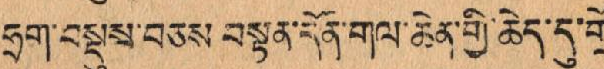ཧྲག་བསྡུས་བཅས་བསྟན་དོན་གལ་ཆེན་གྱི་ཆེད་དུ་གྲོ་
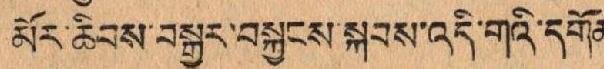མོར་ཆིབས་བསྒྱུར་བསྐྱངས་སྐབས་འདི་གའི་དགོན་
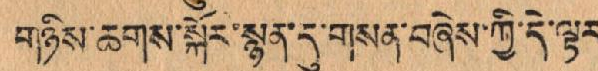གཉིས་ཆགས་སྐོར་སྙན་དུ་གསན་བཞེས་ཀྱི་དེ་ལྟར་
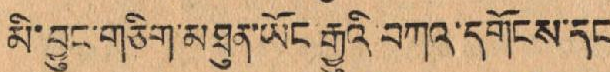མི་བྱུང་གཅིག་མཐུན་ཡོང་རྒྱུའི་བཀའ་དགོངས་དང་
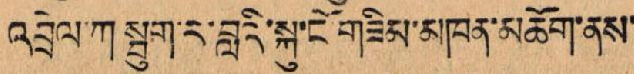འབྲེལ་ཀ་སྦུག་ར་བླའི་སྐུ་ངོ་གཟིམ་མཁན་མཆོག་ནས་
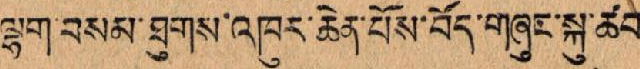ལྷག་བསམ་ཐུགས་འཁུར་ཆེན་པོས་བོད་གཞུང་སྐུ་ཚབ་
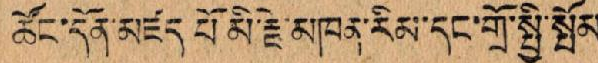ཚོང་དོན་མཛད པོ་མི་རྗེ་མཁན་རིམ་དང་གྲོ་སྤྱི་སྤོམ་
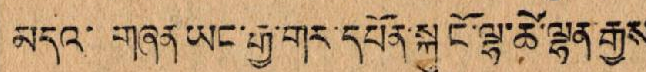མདའ་ གཞན་ཡང་རྒྱ་གར་དཔོན་སྐུ ངོ་ལྷ་ཚེ་ལྷན་རྒྱས་
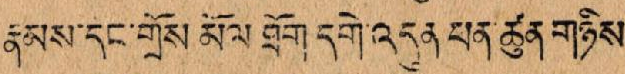རྣམས་དང་གྲོས་མོལ ཐོག དགེ་འདུན ཕན་ཚུལ་གཉིས་
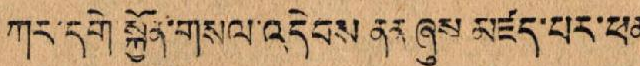ཀར་དགེ་སྐྱོན་གསལ་འདེབས ནན ཞུས མཛད་པར་ཕན་
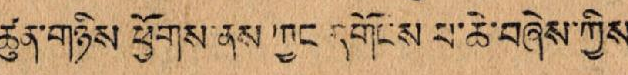ཚུན་གཉིས ཕྱོགས་ནས ཀྱང་དགོངས་པ་ཆེ་བཞེས་ཀྱིས་
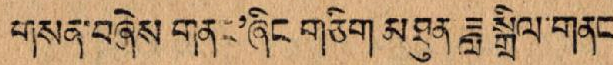གསན་བཞེས་གནང'ཞིང གཅིག མཐུན ཟླ་སྒྲིལ་གནང་
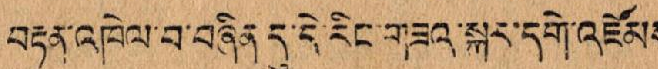བརྟན་འཁེལ་བ་བཞིན དུ་དེ་རིང་གཟའ་སྐར་དགེ་འཛོམས
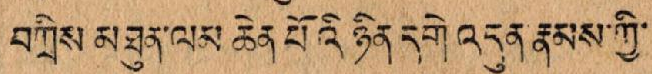བཀྲིས མཐུན་ལམ་ཆེན་པོའི ཉིན་དགེ འདུན རྣམས་ཀྱི་
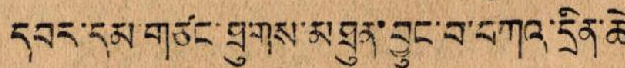དབར་དམ་གཙང་ཐུགས་མཐུན་བྱུང་བ་བཀའ་དྲིན་ཆེ་
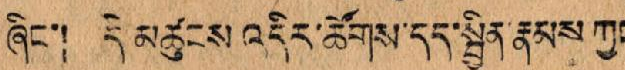ཞིང་། དེ་མཚུངས འདིར་ཚོགས་དད་སྦྱིན་རྣམས་ཀྱང་
